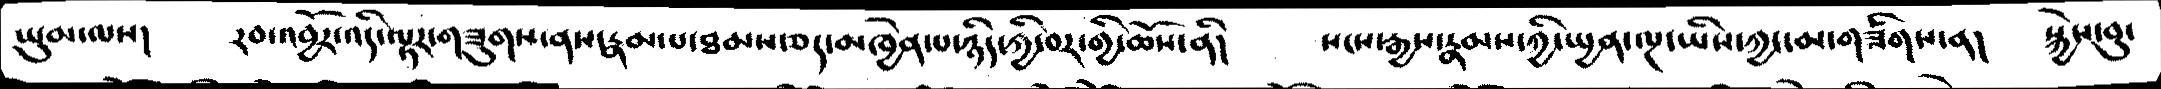ཡུམ་ལས།   རབ་འབྱོར་འདི་ལྟར་གཟུགས་ནས་རྣམ་པཐམས་ཅད་མཁྱེན་པ་ཉིད་ཀྱི་བར་གྱི་ཆོས་ནི།   སངས་རྒྱས་རྣམས་ཀྱི་སྤྱན་ལྔ་ཡིས་ཀྱང་མ་གཟིགས་ན།   སྐྱེས་བུ་
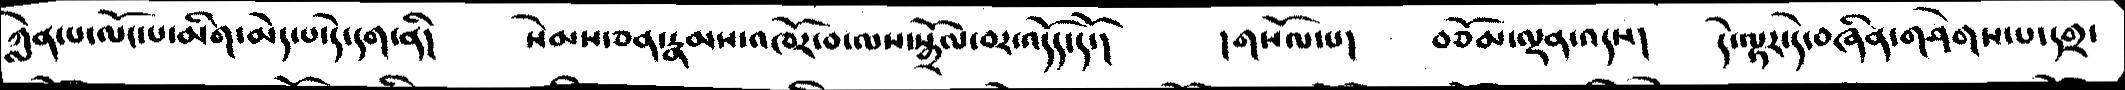ཀླེན་པ་ལོང་པ་མིག་མེད་པ་དེ་དག་ནི།   སེམས་ཅན་རྣམས་འཁོར་བ་ལས་སྒྲོལ་བར་འདོད་དོ་།   །གསོལ་པ།   བཅོམ་ལྡན་འདས།   དེ་ལྟར་དེ་བཞིན་གཤེགས་པ་དགྲ་
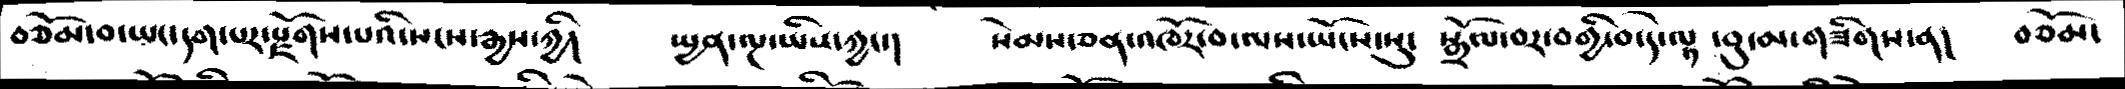བཅོམ་བ་ཡང་དག་པར་རྫོགས་པའི་སངས་རྒྱས་ཀྱི།   སྤྱན་ལྔ་ཡིས་ཀྱང་།   སེམས་ཅན་འཁོར་བ་ལས་ཡོངས་སུ་ སྒྲོལ་བར་བགྱི་བ་དེ་ལྟ་བུ་མ་གཟིགས་ན།   བཅོམ་
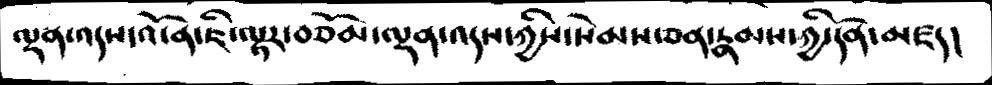ལྡན་འདས་འོ་ན་ཇི་ལྟར་བཅོམ་ལྡན་འདས་ཀྱིས་སེམས་ཅན་རྣམས་ཀྱི་དོན་མཛད།
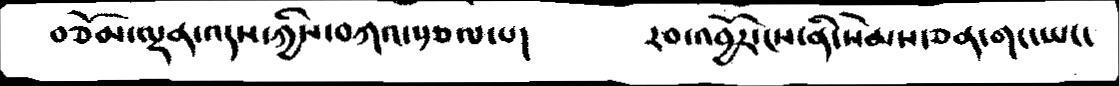བཅོམ་ལྡན་འདས་ཀྱི་བཀའ་སྩལ་པ།   རབ་འབྱོར་ངས་ནི་སེམས་ཅན་གང་ཡང་
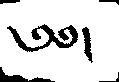༄༅།
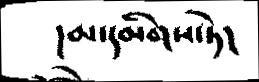།མ་དམིགས་ཏེ།
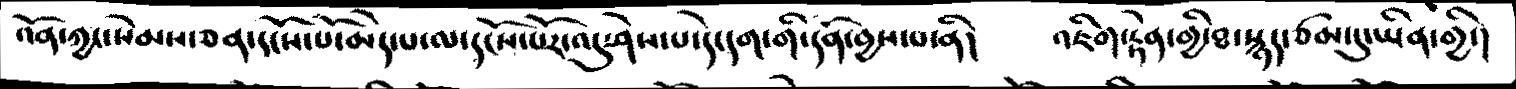འོན་ཀྱང་སེམས་ཅན་དངོས་པོ་མེད་པ་ལ་དངོས་པོར་འདུ་ཤེས་པ་དེ་དག་གི་དོན་བྱས་པ་ནི།   འཇིག་རྟེན་གྱི་ཐ་སྙད་ཙམ་དུ་ཡིན་གྱི་།
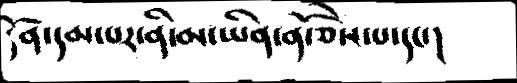དོན་དམ་པར་ནི་མ་ཡིན་ནོ་ཅེས་པ་དང་།
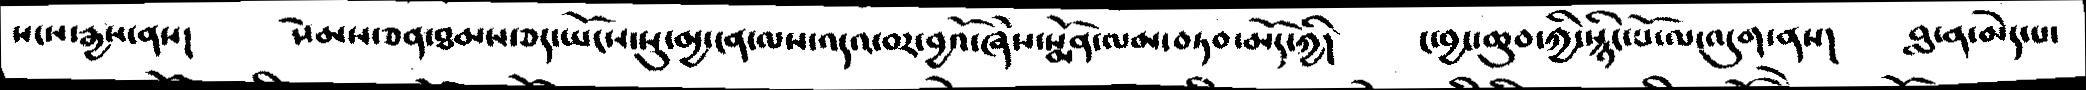སངས་རྒྱས་ནས།   སེམས་ཅན་ཐམས་ཅད་ཡོངས་སུ་མྱ་ངན་ལས་འདའ་བར་བྱའོ་ཞེས་སྨོན་ལམ་བཏབ་མོད་ཀྱི།   ང་བྱང་ཆུབ་ཀྱི་སྙིང་པོ་ལ་འདུག་ནས།   བླ་ན་མེད་པ་
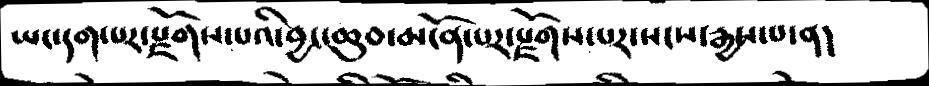ཡང་དག་པར་རྫོགས་པའི་བྱང་ཆུབ་མངོན་པར་རྫོགས་པར་སངས་རྒྱས་པ་ན།
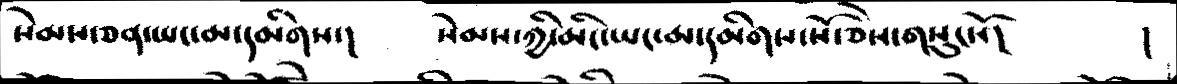སེམས་ཅན་ཡང་མ་དམིགས་།    སེམས་ཀྱི་མིང་ཡང་མ་དམིགས་སོ་ཅེས་གསུངསོ།     །
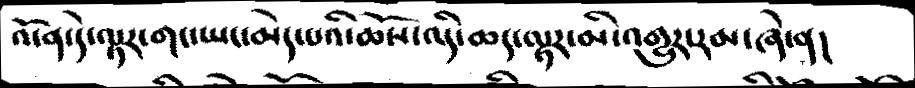འོ་ན་དེ་ལྟར་གང་ཡང་མེད་པའི་ཆོས་འདི་ཆད་ལྟར་མི་འགྱུར་རམ་ཞེ་ན།
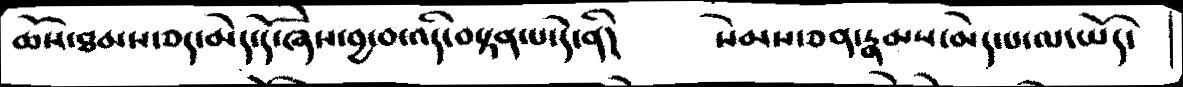ཆོས་ཐམས་ཅད་མེད་དོ་ཞེས་བྱ་བ་འདི་བསྟན་པ་དེ་ནི།   སེམས་ཅན་རྣམས་མེད་པ་ལ་ཡོད་
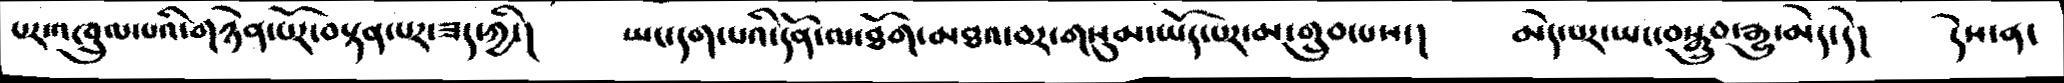པར་འཁྲུལ་པའི་གཉེན་པོར་བསྟན་པར་ཟད་ཀྱི་།   ཡང་དག་པའི་དོན་ལ་ཐོག་མཐའ་བར་གསུམ་ཡོད་པར་མ་གྲུབ་པས་།   མེད་པར་ཡང་བསྒྲུབ་རྒྱུ་མེད་དེ།   དེས་ན་
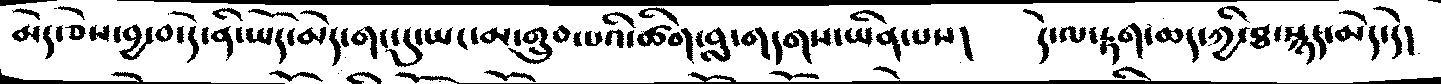མེད་ཅེས་བྱ་བ་དེ་ནི་ཡོད་མེད་གང་དུ་ཡང་མ་གྲུབ་པའི་ཚིག་བླ་གདགས་ཡིན་པས།   དེ་ལ་རྟག་ཆད་ཀྱི་ཐ་སྙད་མེད་དེ།
